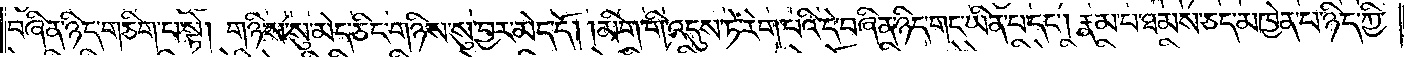བཞིན་ཉིད་གཅིག་པ་སྟེ། གཉིས་སུ་མེད་ཅིང་གཉིས་སུ་བྱར་མེད་དོ། །མིག་གི་འདུས་ཏེ་རེག་པའི་དེ་བཞིན་ཉིད་གང་ཡིན་པ་དང༌། རྣམ་པ་ཐམས་ཅད་མཁྱེན་པ་ཉིད་ཀྱི་
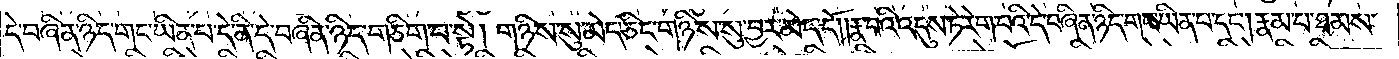དེ་བཞིན་ཉིད་གང་ཡིན་པ་དེ་ནི་དེ་བཞིན་ཉིད་གཅིག་པ་སྟེ། གཉིས་སུ་མེད་ཅིང་གཉིས་སུ་བྱར་མེད་དོ། །རྣ་བའི་འདུས་ཏེ་རེག་པའི་དེ་བཞིན་ཉིད་གང་ཡིན་པ་དང༌། རྣམ་པ་ཐམས་
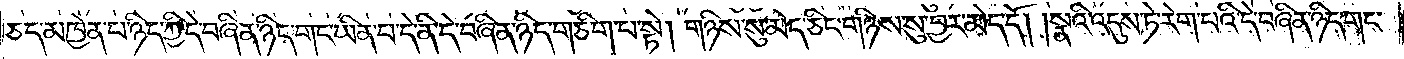ཅད་མཁྱེན་པ་ཉིད་ཀྱི་དེ་བཞིན་ཉིད་གང་ཡིན་པ་དེ་ནི་དེ་བཞིན་ཉིད་གཅིག་པ་སྟེ། གཉིས་སུ་མེད་ཅིང་གཉིས་སུ་བྱར་མེད་དོ། །སྣའི་འདུས་ཏེ་རེག་པའི་དེ་བཞིན་ཉིད་གང་
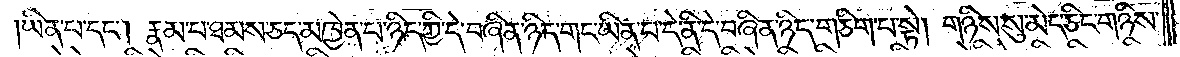ཡིན་པ་དང༌། རྣམ་པ་ཐམས་ཅད་མཁྱེན་པ་ཉིད་ཀྱི་དེ་བཞིན་ཉིད་གང་ཡིན་པ་དེ་ནི་དེ་བཞིན་ཉིད་གཅིག་པ་སྟེ། གཉིས་སུ་མེད་ཅིང་གཉིས་
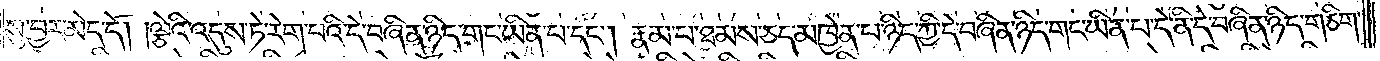སུ་བྱར་མེད་དོ། །ལྕེའི་འདུས་ཏེ་རེག་པའི་དེ་བཞིན་ཉིད་གང་ཡིན་པ་དང༌། རྣམ་པ་ཐམས་ཅད་མཁྱེན་པ་ཉིད་ཀྱི་དེ་བཞིན་ཉིད་གང་ཡིན་པ་དེ་ནི་དེ་བཞིན་ཉིད་གཅིག་
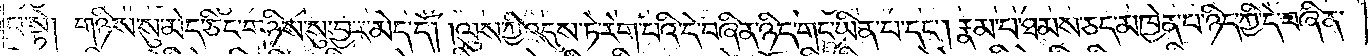པ་སྟེ། གཉིས་སུ་མེད་ཅིང་གཉིས་སུ་བྱར་མེད་དོ། །ལུས་ཀྱི་འདུས་ཏེ་རེག་པའི་དེ་བཞིན་ཉིད་གང་ཡིན་པ་དང༌། རྣམ་པ་ཐམས་ཅད་མཁྱེན་པ་ཉིད་ཀྱི་དེ་བཞིན་
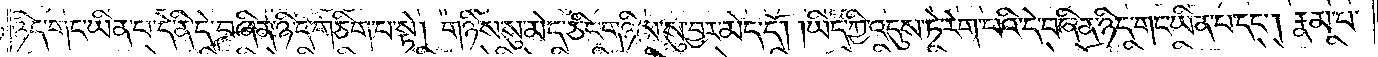ཉིད་གང་ཡིན་པ་དེ་ནི་དེ་བཞིན་ཉིད་གཅིག་པ་སྟེ། གཉིས་སུ་མེད་ཅིང་གཉིས་སུ་བྱར་མེད་དོ། །ཡིད་ཀྱི་འདུས་ཏེ་རེག་པའི་དེ་བཞིན་ཉིད་གང་ཡིན་པ་དང༌། རྣམ་པ་
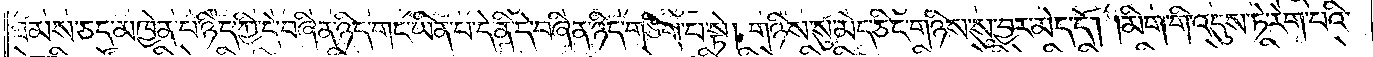ཐམས་ཅད་མཁྱེན་པ་ཉིད་ཀྱི་དེ་བཞིན་ཉིད་གང་ཡིན་པ་དེ་ནི་དེ་བཞིན་ཉིད་གཅིག་པ་སྟེ། གཉིས་སུ་མེད་ཅིང་གཉིས་སུ་བྱར་མེད་དོ། །མིག་གི་འདུས་ཏེ་རེག་པའི་
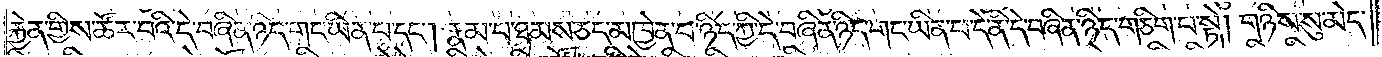རྐྱེན་གྱིས་ཚོར་བའི་དེ་བཞིན་ཉིད་གང་ཡིན་པ་དང༌། རྣམ་པ་ཐམས་ཅད་མཁྱེན་པ་ཉིད་ཀྱི་དེ་བཞིན་ཉིད་གང་ཡིན་པ་དེ་ནི་དེ་བཞིན་ཉིད་གཅིག་པ་སྟེ། གཉིས་སུ་མེད་
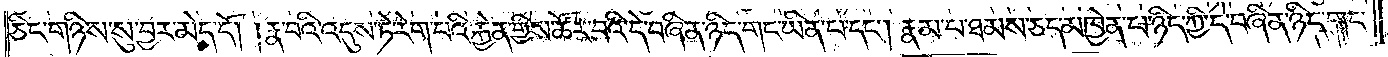ཅིང་གཉིས་སུ་བྱར་མེད་དོ། །རྣ་བའི་འདུས་ཏེ་རེག་པའི་རྐྱེན་གྱིས་ཚོར་བའི་དེ་བཞིན་ཉིད་གང་ཡིན་པ་དང༌། རྣམ་པ་ཐམས་ཅད་མཁྱེན་པ་ཉིད་ཀྱི་དེ་བཞིན་ཉིད་གང་
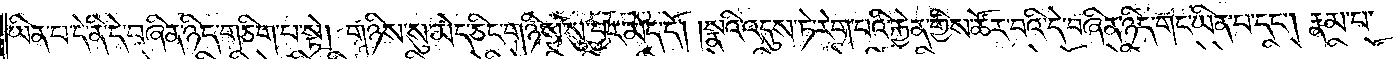ཡིན་པ་དེ་ནི་དེ་བཞིན་ཉིད་གཅིག་པ་སྟེ། གཉིས་སུ་མེད་ཅིང་གཉིས་སུ་བྱར་མེད་དོ། །སྣའི་འདུས་ཏེ་རེག་པའི་རྐྱེན་གྱིས་ཚོར་བའི་དེ་བཞིན་ཉིད་གང་ཡིན་པ་དང༌། རྣམ་པ་
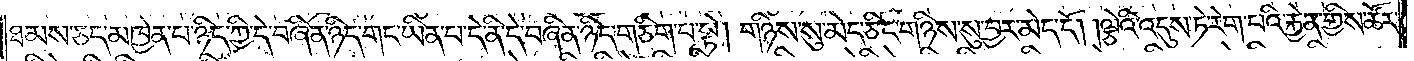ཐམས་ཅད་མཁྱེན་པ་ཉིད་ཀྱི་དེ་བཞིན་ཉིད་གང་ཡིན་པ་དེ་ནི་དེ་བཞིན་ཉིད་གཅིག་པ་སྟེ། གཉིས་སུ་མེད་ཅིང་གཉིས་སུ་བྱར་མེད་དོ། །ལྕེའི་འདུས་ཏེ་རེག་པའི་རྐྱེན་གྱིས་ཚོར་
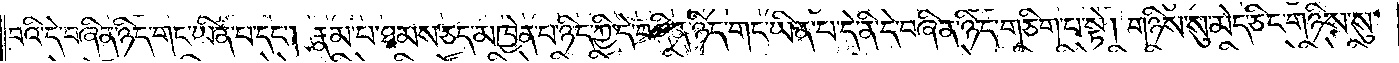བའི་དེ་བཞིན་ཉིད་གང་ཡིན་པ་དང༌། རྣམ་པ་ཐམས་ཅད་མཁྱེན་པ་ཉིད་ཀྱི་དེ་བཞིན་ཉིད་གང་ཡིན་པ་དེ་ནི་དེ་བཞིན་ཉིད་གཅིག་པ་སྟེ། གཉིས་སུ་མེད་ཅིང་གཉིས་སུ་
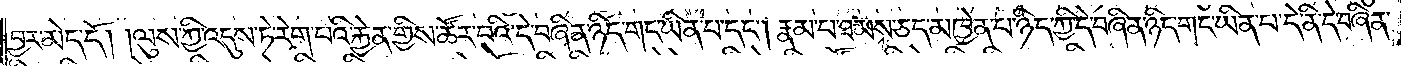བྱར་མེད་དོ། །ལུས་ཀྱི་འདུས་ཏེ་རེག་པའི་རྐྱེན་གྱིས་ཚོར་བའི་དེ་བཞིན་ཉིད་གང་ཡིན་པ་དང༌། རྣམ་པ་ཐམས་ཅད་མཁྱེན་པ་ཉིད་ཀྱི་དེ་བཞིན་ཉིད་གང་ཡིན་པ་དེ་ནི་དེ་བཞིན་
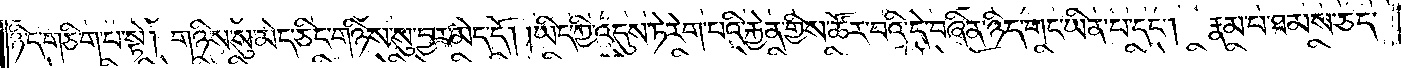ཉིད་གཅིག་པ་སྟེ། གཉིས་སུ་མེད་ཅིང་གཉིས་སུ་བྱར་མེད་དོ། །ཡིད་ཀྱི་འདུས་ཏེ་རེག་པའི་རྐྱེན་གྱིས་ཚོར་བའི་དེ་བཞིན་ཉིད་གང་ཡིན་པ་དང༌། རྣམ་པ་ཐམས་ཅད་
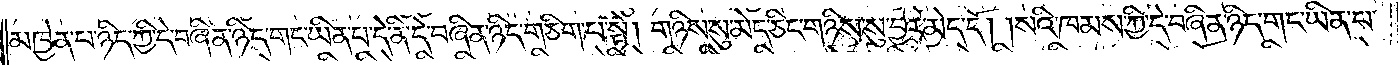མཁྱེན་པ་ཉིད་ཀྱི་དེ་བཞིན་ཉིད་གང་ཡིན་པ་དེ་ནི་དེ་བཞིན་ཉིད་གཅིག་པ་སྟེ། གཉིས་སུ་མེད་ཅིང་གཉིས་སུ་བྱར་མེད་དོ། །སའི་ཁམས་ཀྱི་དེ་བཞིན་ཉིད་གང་ཡིན་པ་
